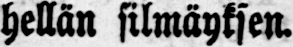hellän silmäyksen.
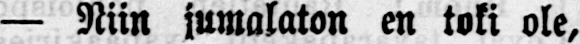— Niin jumalaton en toki ole,
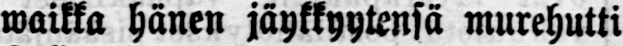waikka hänen jäykkyytensä murehutti
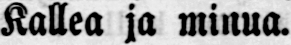Kallea ja minua. — —
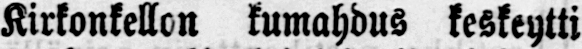Kirkonkellon kumahdus keskeytti
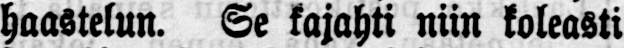haastetun. Se kajahti niin koleasti
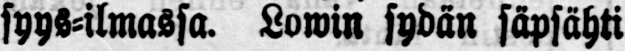syys-ilmassa. Lowin sydän säpsähti
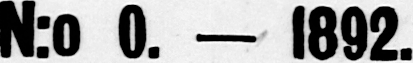N:o 0. - 1892.
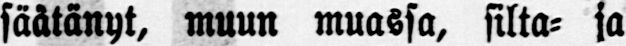säätänyt, muun muassa, silta- ja
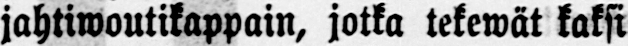jahtiwoutikappain, jotka tekewät kaksi
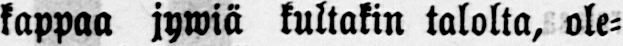kappaa jywiä kultakin talolta, ole-
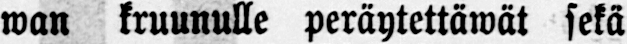wan kruunulle peräytettäwät sekä
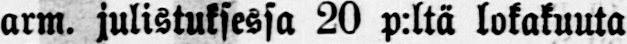arm. julistuksessa 20 p:ltä lokakuuta
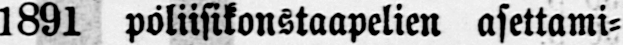1891 poliisikonstaapelien asettami-
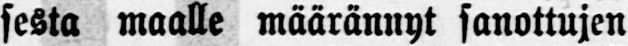sesta maalle määrännyt sanottujen
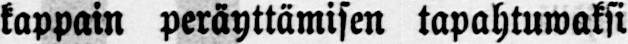koppain peräyttämisen tapahtuwaksi
